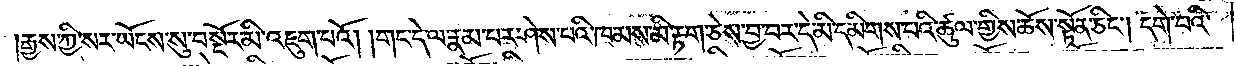རྒྱས་ཀྱི་སར་ཡོངས་སུ་བསྔོར་མི་འཇུག་པའོ། །གང་དེ་ལ་རྣམ་པར་ཤེས་པའི་ཁམས་མི་རྟག་ཅེས་བྱ་བར་དེ་མི་དམིགས་པའི་ཚུལ་གྱིས་ཆོས་སྟོན་ཅིང༌། དགེ་བའི་
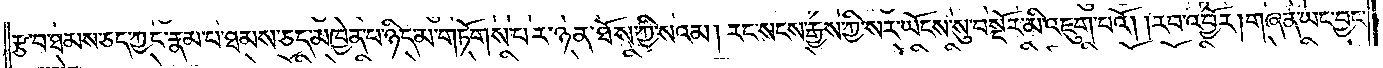རྩ་བ་ཐམས་ཅད་ཀྱང་རྣམ་པ་ཐམས་ཅད་མཁྱེན་པ་ཉིད་མ་གཏོགས་པར་ཉན་ཐོས་ཀྱི་སའམ། རང་སངས་རྒྱས་ཀྱི་སར་ཡོངས་སུ་བསྔོར་མི་འཇུག་པའོ། །རབ་འབྱོར། གཞན་ཡང་བྱང་
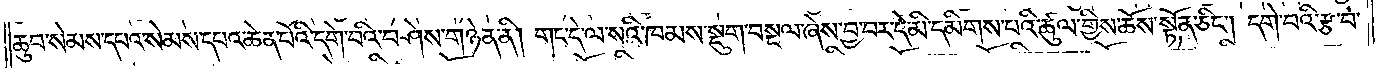ཆུབ་སེམས་དཔའ་སེམས་དཔའ་ཆེན་པོའི་དགེ་བའི་བཤེས་གཉེན་ནི། གང་དེ་ལ་སའི་ཁམས་སྡུག་བསྔལ་ཞེས་བྱ་བར་དེ་མི་དམིགས་པའི་ཚུལ་གྱིས་ཆོས་སྟོན་ཅིང༌། དགེ་བའི་རྩ་བ་
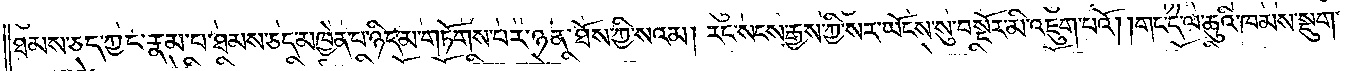ཐམས་ཅད་ཀྱང་རྣམ་པ་ཐམས་ཅད་མཁྱེན་པ་ཉིད་མ་གཏོགས་པར་ཉན་ཐོས་ཀྱི་སའམ། རང་སངས་རྒྱས་ཀྱི་སར་ཡོངས་སུ་བསྔོར་མི་འཇུག་པའོ། །གང་དེ་ལ་ཆུའི་ཁམས་སྡུག་
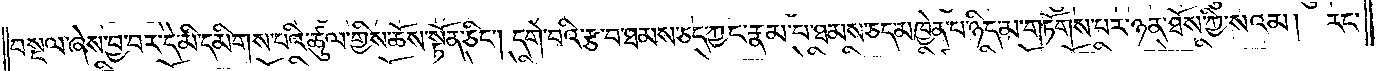བསྔལ་ཞེས་བྱ་བར་དེ་མི་དམིགས་པའི་ཚུལ་གྱིས་ཆོས་སྟོན་ཅིང༌། དགེ་བའི་རྩ་བ་ཐམས་ཅད་ཀྱང་རྣམ་པ་ཐམས་ཅད་མཁྱེན་པ་ཉིད་མ་གཏོགས་པར་ཉན་ཐོས་ཀྱི་སའམ། རང་
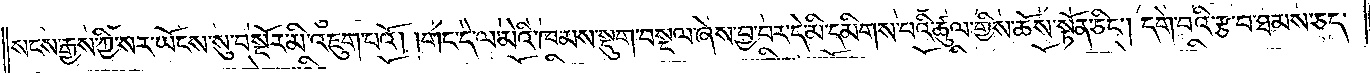སངས་རྒྱས་ཀྱི་སར་ཡོངས་སུ་བསྔོར་མི་འཇུག་པའོ། །གང་དེ་ལ་མེའི་ཁམས་སྡུག་བསྔལ་ཞེས་བྱ་བར་དེ་མི་དམིགས་པའི་ཚུལ་གྱིས་ཆོས་སྟོན་ཅིང༌། དགེ་བའི་རྩ་བ་ཐམས་ཅད་
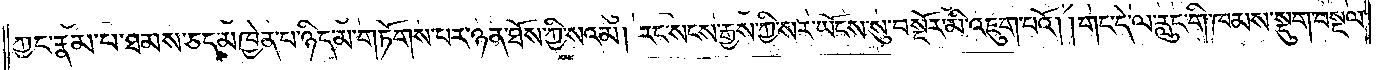ཀྱང་རྣམ་པ་ཐམས་ཅད་མཁྱེན་པ་ཉིད་མ་གཏོགས་པར་ཉན་ཐོས་ཀྱིས་སའམ། རང་སངས་རྒྱས་ཀྱི་སར་ཡོངས་སུ་བསྔོར་མི་འཇུག་པའོ། །གང་དེ་ལ་རླུང་གི་ཁམས་སྡུག་བསྔལ་
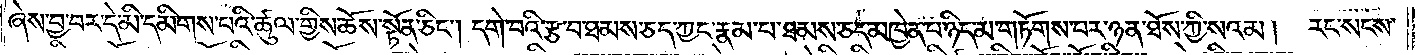ཞེས་བྱ་བར་དེ་མི་དམིགས་པའི་ཚུལ་གྱིས་ཆོས་སྟོན་ཅིང༌། དགེ་བའི་རྩ་བ་ཐམས་ཅད་ཀྱང་རྣམ་པ་ཐམས་ཅད་མཁྱེན་པ་ཉིད་མ་གཏོགས་པར་ཉན་ཐོས་ཀྱི་སའམ། རང་སངས་
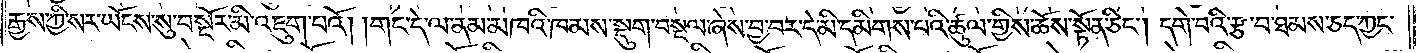རྒྱས་ཀྱི་སར་ཡོངས་སུ་བསྔོར་མི་འཇུག་པའོ། །གང་དེ་ལ་ནམ་མཁའི་ཁམས་སྡུག་བསྔལ་ཞེས་བྱ་བར་དེ་མི་དམིགས་པའི་ཚུལ་གྱིས་ཆོས་སྟོན་ཅིང༌། དགེ་བའི་རྩ་བ་ཐམས་ཅད་ཀྱང་
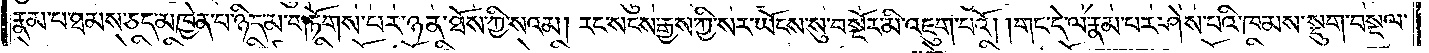རྣམ་པ་ཐམས་ཅད་མཁྱེན་པ་ཉིད་མ་གཏོགས་པར་ཉན་ཐོས་ཀྱི་སའམ། རང་སངས་རྒྱས་ཀྱི་སར་ཡོངས་སུ་བསྔོར་མི་འཇུག་པའོ། །གང་དེ་ལ་རྣམ་པར་ཤེས་པའི་ཁམས་སྡུག་བསྔལ་
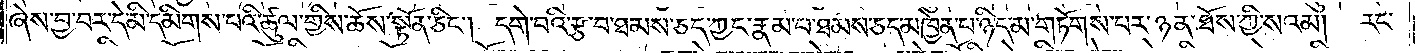ཞེས་བྱ་བར་དེ་མི་དམིགས་པའི་ཚུལ་གྱིས་ཆོས་སྟོན་ཅིང༌།དགེ་བའི་རྩ་བ་ཐམས་ཅད་ཀྱང་རྣམ་པ་ཐམས་ཅད་མཁྱེན་པ་ཉིད་མ་གཏོགས་པར་ཉན་ཐོས་ཀྱི་སའམ། རང་
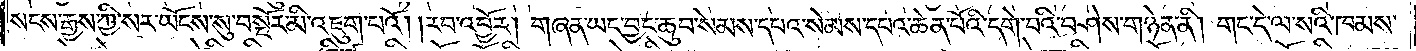སངས་རྒྱས་ཀྱི་སར་ཡོངས་སུ་བསྔོར་མི་འཇུག་པའོ། །རབ་འབྱོར། གཞན་ཡང་བྱང་ཆུབ་སེམས་དཔའ་སེམས་དཔའ་ཆེན་པོའི་དགེ་བའི་བཤེས་གཉེན་ནི། གང་དེ་ལ་སའི་ཁམས་
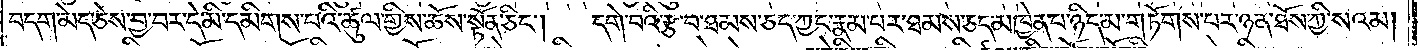བདག་མེད་ཅེས་བྱ་བར་དེ་མི་དམིགས་པའི་ཚུལ་གྱིས་ཆོས་སྟོན་ཅིང༌། དགེ་བའི་རྩ་བ་ཐམས་ཅད་ཀྱང་རྣམ་པར་ཐམས་ཅད་མཁྱེན་པ་ཉིད་མ་གཏོགས་པར་ཉན་ཐོས་ཀྱི་སའམ།
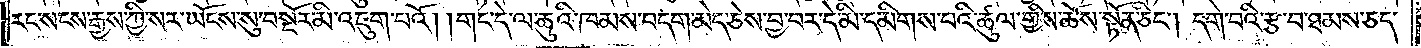རང་སངས་རྒྱས་ཀྱི་སར་ཡོངས་སུ་བསྔོར་མི་འཇུག་པའོ། །གང་དེ་ལ་ཆུའི་ཁམས་བདག་མེད་ཅེས་བྱ་བར་དེ་མི་དམིགས་པའི་ཚུལ་གྱིས་ཆོས་སྟོན་ཅིང༌། དགེ་བའི་རྩ་བ་ཐམས་ཅད་
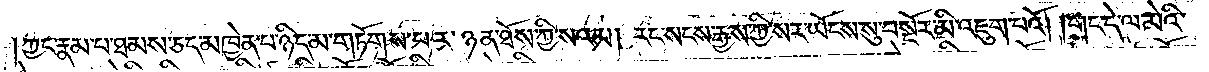ཀྱང་རྣམ་པ་ཐམས་ཅད་མཁྱེན་པ་ཉིད་མ་གཏོགས་པར་ཉན་ཐོས་ཀྱི་སའམ། རང་སངས་རྒྱས་ཀྱི་སར་ཡོངས་སུ་བསྔོར་མི་འཇུག་པའོ། །གང་དེ་ལ་མེའི་
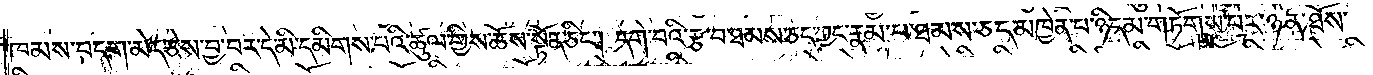ཁམས་བདག་མེད་ཅེས་བྱ་བར་དེ་མི་དམིགས་པའི་ཚུལ་གྱིས་ཅོས་སྟོན་ཅིང༌། དགེ་བའི་རྩ་བ་ཐམས་ཅད་ཀྱང་རྣམ་པ་ཐམས་ཅད་མཁྱེན་པ་ཉིད་མ་གཏོགས་པར་ཉན་ཐོས་
